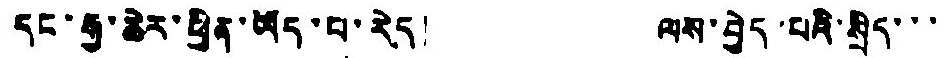དང་རྒྱ་ཆེར་ཕྱིན་ཡོད་པ་རེད། ལས་བྱེད་པའི་སྲིད་་་
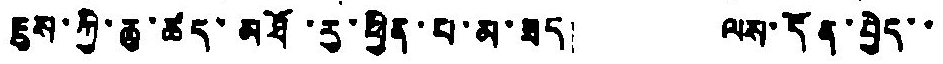ཇུས་ཀྱི་ཆུ་ཚད་མཐོ་རུ་ཕྱིན་པ་མ་ཟད། ལས་དོན་བྱེད་་
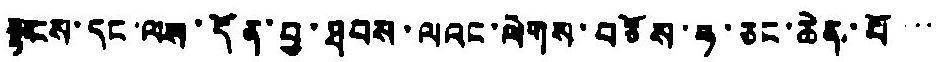སྟངས་དང་ལས་དོན་བྱ་ཐབས་ལའང་ལེགས་བཅོས་ཧ་ཅང་ཆེན་པོ་་་
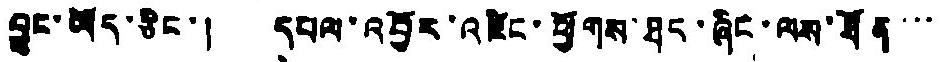བྱུང་་ཡོད་ཅིང་། དཔལ་འབྱོར་འཛིང་ཕྱོགས་ཐང་ཞིང་ལས་ཐོན་་་
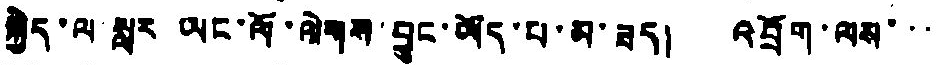སྐྱིད་ལ སླར ཡང་ལོ་ལེགས་བྱུང་ཡོད་པ་མ་ཟད། འབྲོག་ལས་་་
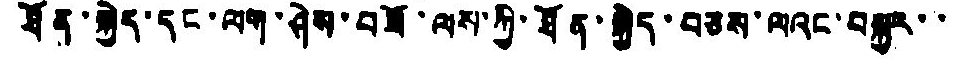ཐོན་སྐྱེད་དང་ལག་ཤེས་བཟོ་ལས་ཀྱི་ཐོན་སྐྱེད་བཅས་ལའང་བསྐྱར་་
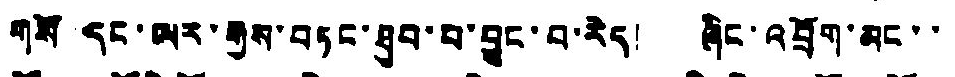གསོ དང་ཡར་རྒྱས་བཏང་ཐུབ་པ་བྱུང་བ་རེད། ཞིང་འབྲོག་མང་་
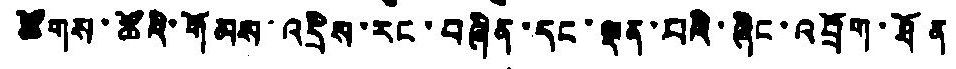ཚོགས་ཚོའི་གོམས་འདྲིས་རང་བཞིན་དང་ལྡན་པའི་ཞིང་འབྲོག་ཐོན
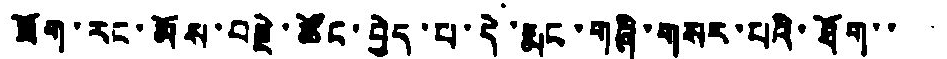ཟོག་རང་མོས་བརྗེ་ཚོང་བྱེད་པ་དེ་རྨང་གཞི་གསར་པའི་ཐོག་་
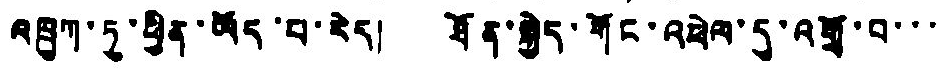འཁྲུག་ཏུ་ཕྱིན་ཡོད་པ་རེད། ཐོན་སྐྱེད་གོང་འཕེལ་དུ་འགྲོ་བ་་་
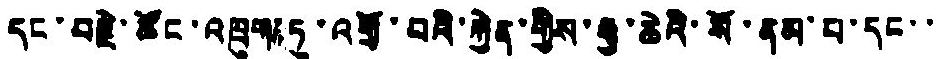དང་བརྗེ་ཚོང་འཁྲུག་ཏུ་འགྲོ་བའི་རྐྱེན་གྱིས་རྒྱ་ཆེའི་སོ་ནམ་པ་དང་་
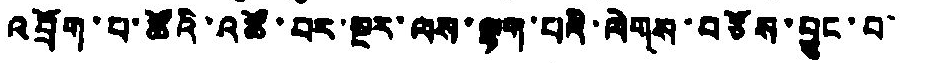འབྲོག་པ་ཚོའི་འཚོ་བར་སྔར་ལས་ལྷག་པའི་ལེགས་བཅོས་བྱུང་བ་
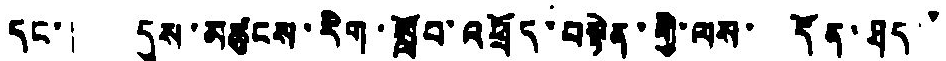དང་། དུས་མཚུངས་རིག་སློབ་འཕྲོད་བསྟེན་གྱི་ལས་ དོན་ཐད་་
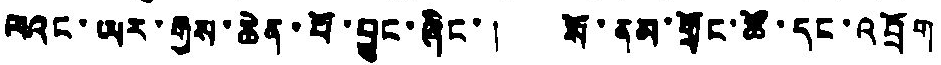ལའང་ཡར་རྒྱས་ཆེན་པོ་བྱུང་ཞིང་། སོ་ནམ་གྲོང་ཚོ་དང་འབྲོག
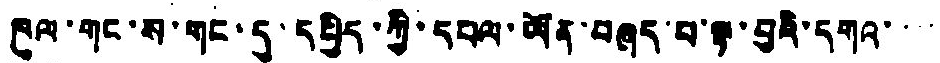ཁུལ་གང་ས་གང་དུ་དཔྱིད་ཀྱི་དཔལ་ཡོན་བཞད་པ་ལྟ་བུའི་དགའ་་་་
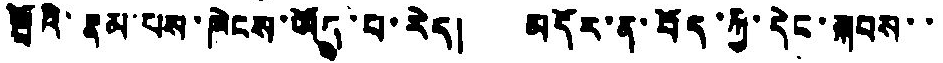སྤྲོའི་རྣམ་པས་ཁེངས་ཡོད་པ་རེད། མདོར་ན་བོད་ཀྱི་དེང་སྐབས་་
